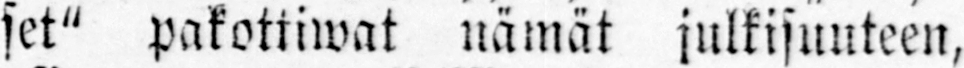set" pakottiwat nämät julkisuuteen,
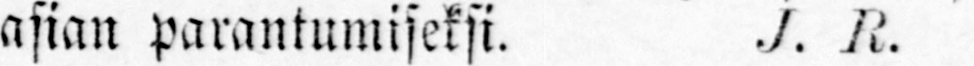asian parantumiseksi. J. R.
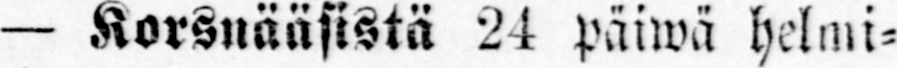— Korsnääsistä 24 päiwä helmi-
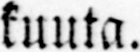kuuta.
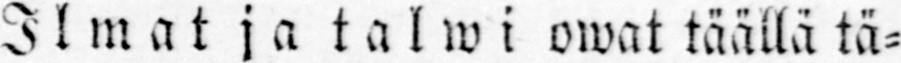Ilmat ja talwi owat täällä tä-
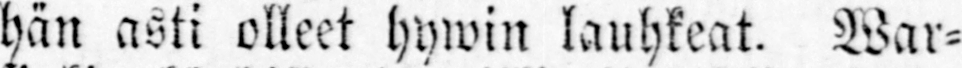hän asti olleet hywin lauhkeat. War-
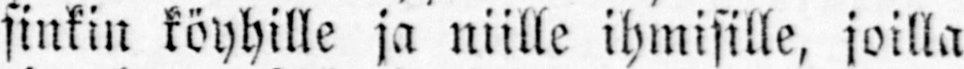sinkin köyhille ja niille ihmisille, joilla
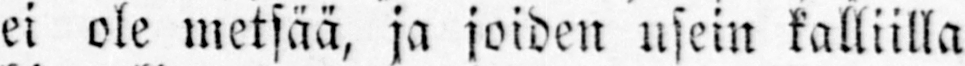ei ole metsää, ja joiden usein kalliilla
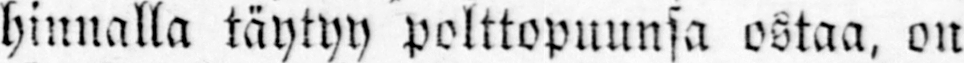hinnalla täytyy polttopuunsa ostaa, on
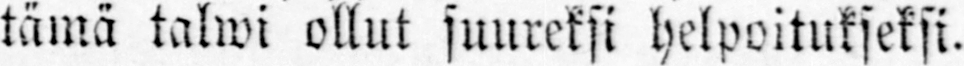tämä talwi ollut suureksi helpoitukseksi.
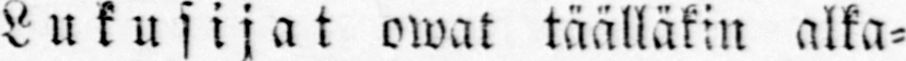Lukusi jat owat täälläkin alka-
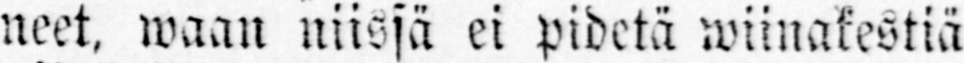neet, waan niissä ei pidetä wiinakestiä
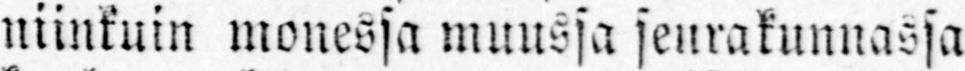niinkuin monessa muussa seurakunnassa
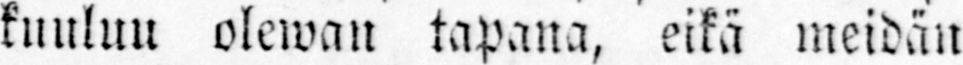kuuluu olewan tapana, eikä meidän
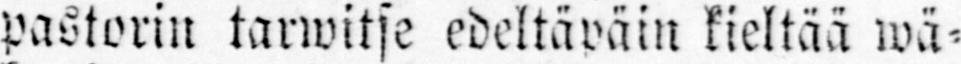pastorin tarwitse edeltäpäin kieltää wä-
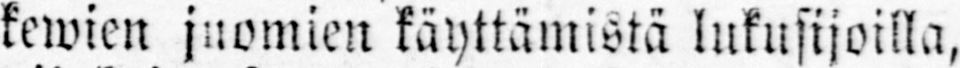kewien juomien käyttämistä lukusijoilla,
